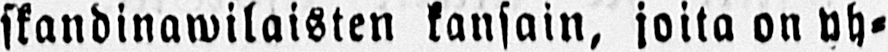skandinawilaisten kansain, joita on yh-
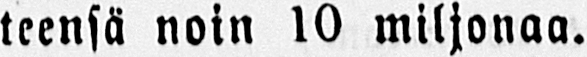teensä noin 10 miljonaa.
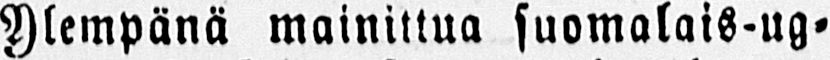Ylempänä mainittua suomalais-ug-
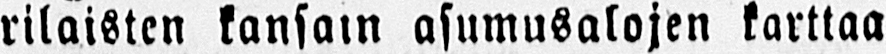rilaisten kansain asumusalojen karttaa
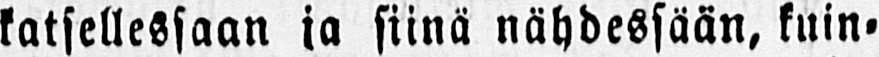katsellessaan ja siinä nähdessään, kuin-
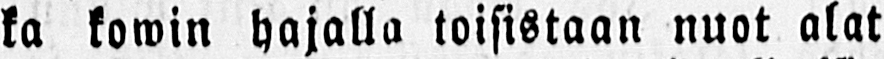ka komin hajalla toisistaan nuot alat
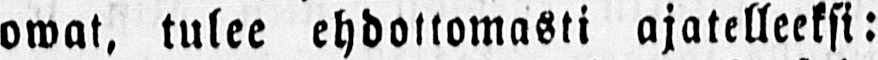omat, tulee ehdottomasti ajatelleeksi:
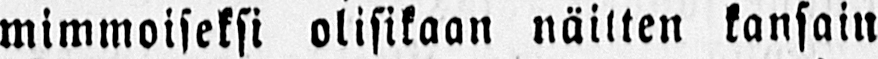mimmoiseksi olisikaan näitten kansain
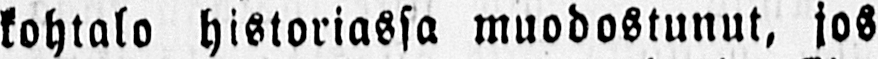kohtalo historiassa muodostunut, jos
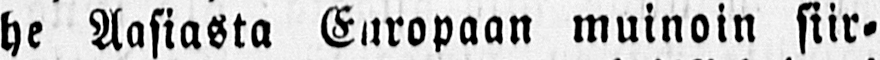he Aasiasta Europaan muinoin siir-
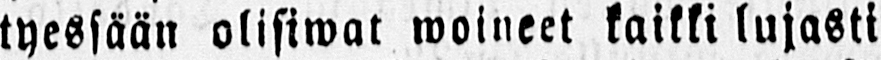tyessään olisiwat woineet kaikki lujasti
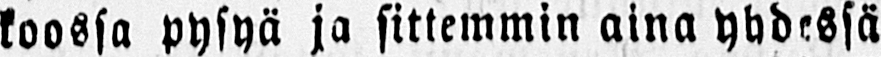koossa pysyä ja sittemmin aina yhdessä
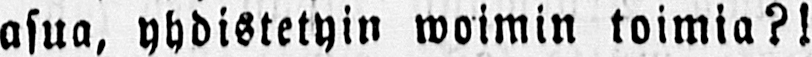asua, yhdistetyin woimin toimia?!
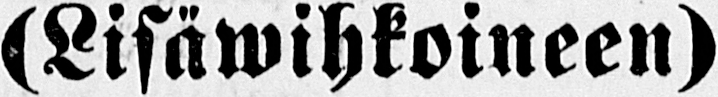(Lisäwihkoineen)
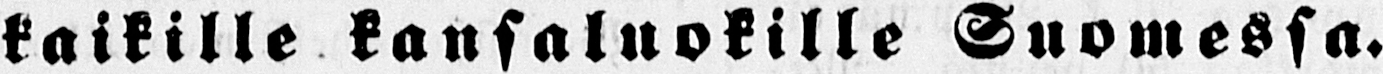kaikille kansaluokille Suomessa.
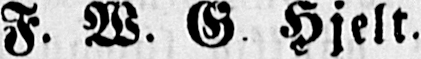F. W. G. Hjelt.
